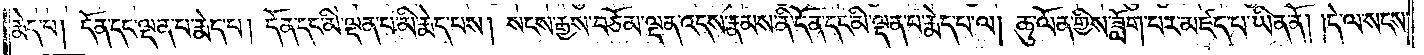རྨེད་པ། དོན་དང་ལྡན་པ་རྨེད་པ། དོན་དང་མི་ལྡན་པ་མི་རྨེད་པས། སངས་རྒྱས་བཅོམ་ལྡན་འདས་རྣམས་ནི་དོན་དང་མི་ལྡན་པ་རྨེད་པ་ལ། ཆུ་ལོན་གྱིས་ཟློག་པར་མཛད་པ་ཡིན་ནོ། །དེ་ལ་སངས་
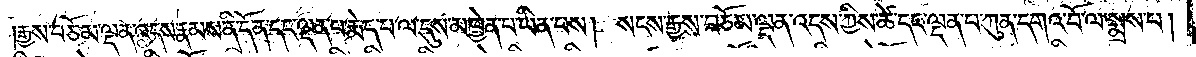།རྒྱས་བཅོམ་ལྡན་འདས་རྣམས་ནི་དོན་དང་ལྡན་པ་རྨེད་པ་ལ་དུས་མཁྱེན་པ་ཡིན་པས། སངས་རྒྱས་བཅོམ་ལྡན་འདས་ཀྱིས་ཚེ་དང་ལྡན་པ་ཀུ་དགའ་བོ་ལ་སྨྲས་པ།
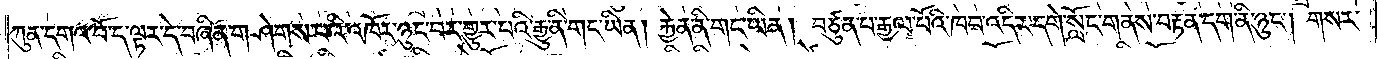ཀུན་དགའ་བོ་ད་ལྟར་དེ་བཞིན་གཤེགས་པའི་འཁོར་ཉུང་བར་གྱུར་པའི་རྒྱུ་ནི་གང་ཡིན། རྐྱེན་ནི་གང་ཡིན། བཙུན་པ་རྒྱལ་པོའི་ཁབ་འདིར་དགེ་སློང་གནས་བརྟན་དག་ནི་ཉུང༌། གསར་
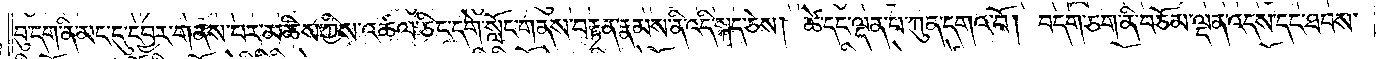བུ་དག་ནི་མང་དུ་དབྱར་གནས་པར་མཆིས་ཀྱིས་འཚལ་ཅིང་དགེ་སློང་གནས་བརྟན་རྣམས་ནི་འདི་སྐད་ཅེས། ཚེ་དང་ལྡན་པ་ཀུན་དགའ་བོ། བདག་ཅག་ནི་བཅོམ་ལྡན་འདས་དང་ཐབས་
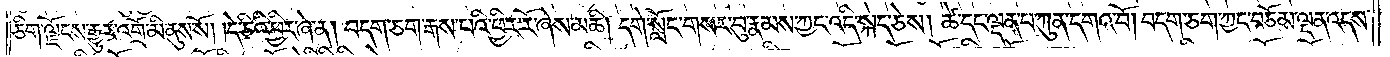ཅིག་ལྗོངས་རྒྱུར་འགྲོ་མི་ནུས་སོ། །དེ་ཅིའི་ཕྱིར་ཞེ་ན། བདག་ཅག་རྒས་པའི་ཕྱིར་རོ་ཞེས་མཆི། དགེ་སློང་གསར་བུ་རྣམས་ཀྱང་འདི་སྐད་ཅེས། ཚེ་དང་ལྡན་པ་ཀུན་དགའ་བོ། བདག་ཅག་ཀྱང་བཅོམ་ལྡན་འདས་
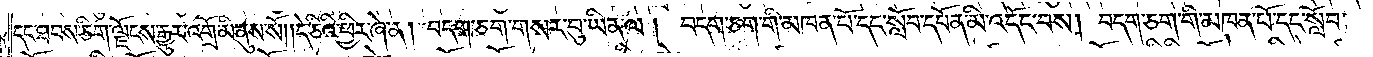དང་ཐབས་ཅིག་ལྗོངས་རྒྱུར་འགྲོ་མི་ནུས་སོ། །དེ་ཅིའི་ཕྱིར་ཞེ་ན། བདག་ཅག་གསར་བུ་ཡིན་ལ། བདག་ཅག་གི་མཁན་པོ་དང་སློབ་དཔོན་མི་འདོང་བས། བདག་ཅག་གི་མཁན་པོ་དང་སློབ་
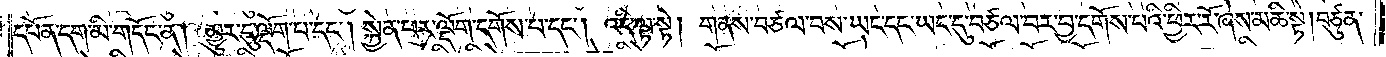དཔོན་དག་མི་གདོང་ན། མྱུར་དུ་ལྡོག་པ་དང༌། སྐྱེན་པར་ལྡོག་དགོས་པ་དང༌། འདི་ལྟ་སྟེ། གནས་བཙལ་བས་ཡང་དང་ཡང་དུ་བཙལ་བར་བྱ་དགོས་པའི་ཕྱིར་རོ་ཞེས་མཆི་སྟེ།བཙུན་
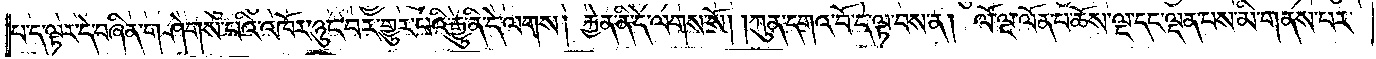པ་ད་ལྟར་དེ་བཞིན་གཤེགས་པའི་འཁོར་ཉུང་བར་གྱུར་པའི་རྒྱུ་ནི་དེ་ལགས། རྐྱེན་ནི་དེ་ལགས་སོ། །ཀུན་དགའ་བོ་དེ་ལྟ་བས་ན། ལོ་ལྔ་ལོན་པ་ཆོས་ལྔ་དང་ལྡན་པས་མི་གནས་པར་
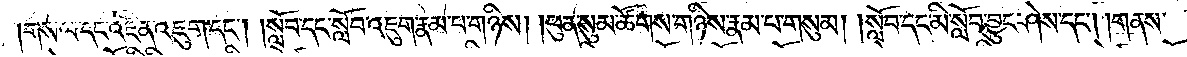།གསལ་དང་འཛིན་འཇུག་དང༌། །སློབ་དང་སློབ་འཇུག་རྣམ་པ་གཉིས། །ཕུན་སུམ་ཚོགས་གཉིས་རྣམ་པ་གསུམ། །སློབ་དང་མི་སློབ་བྱུང་ཤེས་དང༌། །གནས་
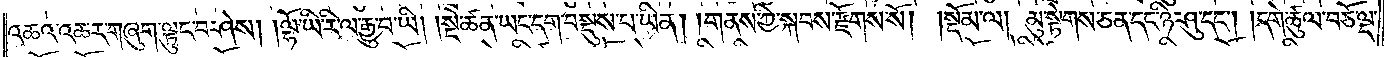འཆའ་འཆར་གཞུག་ལྟུང་བ་ཤེས། །ལྷོ་ཡི་རི་ལ་རྒྱུ་བ་ཡི། །སྔ་ཚན་ཡང་དག་བསྡུས་པ་ཡིན། །གནས་ཀྱི་སྐབས་རྫོགས་སོ།    །སྡོམ་ལ། མུ་སྟེགས་ཅན་དང་ཉི་ཤུ་དང༌། །དགེ་ཚུལ་བཅོ་ལྔ་
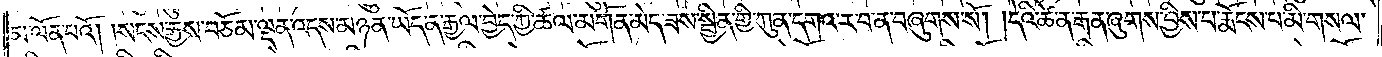མ་ལོན་པའོ། །སངས་རྒྱས་བཅོམ་ལྡན་འདས་མཉན་ཡོད་ན་རྒྱལ་བྱེད་ཀྱི་ཚལ་མགོན་མེད་ཟས་སྦྱིན་གྱི་ཀུན་དགའ་ར་བ་ན་བཞུགས་སོ། །དེའི་ཚེ་ན་རྒན་ཞུགས་བྱིས་པ་རྨོངས་པ་མི་གསལ་
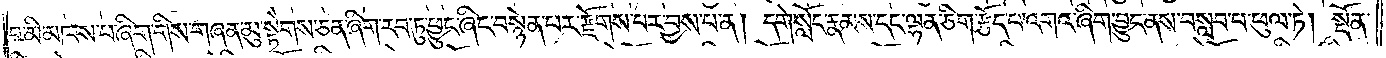བ་མི་མཁས་པ་ཞིག་གིས་གཞན་མུ་སྟེགས་ཅན་ཞིག་རབ་ཏུ་ཕྱུང་ཞིང་བསྙེན་པར་རྫོགས་པར་བྱས་པ་ན། དགེ་སློང་རྣམས་དང་ལྷན་ཅིག་རྩོད་པ་འགའ་ཞིག་བྱུང་ནས་བསླབ་པ་ཕུལ་ཏེ། སྔོན་
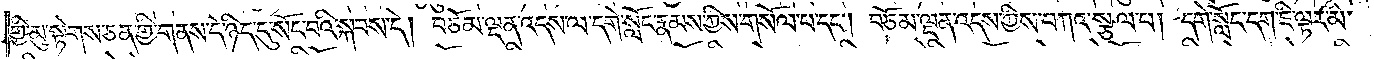གྱི་མུ་སྟེགས་ཅན་གྱི་གནས་དེ་ཉིད་དུ་སོང་བའི་སྐབས་དེ། བཅོམ་ལྡན་འདས་ལ་དགེ་སློང་རྣམས་ཀྱིས་གསོལ་པ་དང༌། བཅོམ་ལྡན་འདས་ཀྱིས་བཀའ་སྩལ་པ། དགེ་སློང་དག་ཇི་ལྟར་མི་
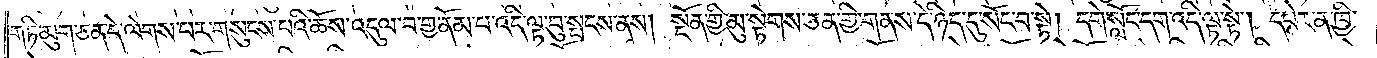གཏི་མུག་ཅན་དེ་ལེགས་པར་གསུངས་པའི་ཆོས་འདུལ་བ་གྱ་ནོམ་བ་འདི་ལྟ་བུ་སྤངས་ནས། སྔོན་གྱི་མུ་སྟེགས་ཅན་གྱི་གནས་དེ་ཉིད་དུ་སོང་བ་སྟེ། དགེ་སློང་དག་འདི་ལྟ་སྟེ། དཔེར་ན་ཁྱི་
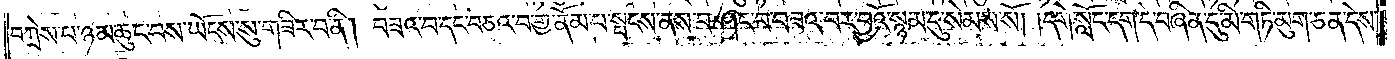བཀྲེས་པ་ཉམ་ཆུང་བས་ཡོངས་སུ་གཟིར་བ་ནི། བཟའ་བ་དང་བཅའ་བ་གྱ་ནོམ་པ་སྤངས་ནས་བཤང་བ་བཟའ་བར་བྱའོ་སྙམ་དུ་སེམས་སོ། །དགེ་སློང་དག་དེ་བཞིན་དུ་མི་གཏི་མུག་ཅན་དེས་
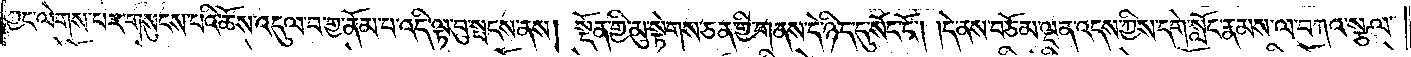ཀྱང་ལེགས་པར་གསུངས་པའི་ཆོས་འདུལ་བ་གྱ་ནོམ་པ་འདི་ལྟ་བུ་སྤངས་ནས། སྔོན་གྱི་མུ་སྟེགས་ཅན་གྱི་གནས་དེ་ཉིད་དུ་སོང་ངོ༌། །དེ་ནས་བཅོམ་ལྡན་འདས་ཀྱིས་དགེ་སློང་རྣམས་ལ་བཀའ་སྩལ་
